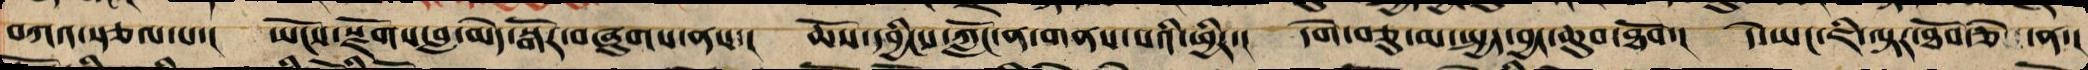བཀའ་སྩལ་པ་། ཡོངས་སྫོགས་བླ་མེད་སྒོར་ཞུགས་ནས་། ཆོས་དབྱིངས་ཀློང་ན་གནས་པའི་ཕྱིར་། དགེ་བཅུ་མ་སྤྱད་བྱང་ཆུབ་ཐོབ་། དེ་ཡང་ཇི་ལྟར་ཐོབ་ཅེ་ན་།
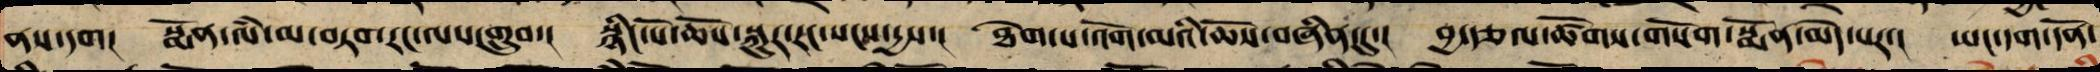ནས་དག། སྨོན་ལཾ་མ་བཏབ་རང་ལས་གྲུབ་། སྙིང་པོ་ཆོས་སྐུར་རང་སངས་དྱས་། ཐེག་པ་འོག་མའི་ཆོས་བཞིན་དུ་། བྱ་རྩལ་ཚོགས་གསོག་སྨོན་མེད་པར་། ཡང་དག་དོན་
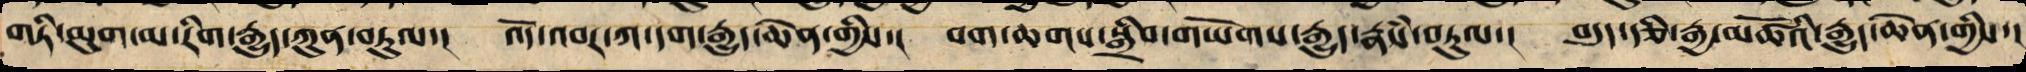གཏི་མུག་མ་རིག་རྒྱུད་ཀུན་བཏུལ་། འོད་འབར་ཀ་དག་རྒྱུད་ཆེན་གྱིས་། བག་ཆགས་སྒྲིབ་གཡོགས་རྒྱུད་རྣཾས་བཏུལ་། བདུད་རྩི་རྒྱ་མཚོའི་རྒྱུད་ཆེན་གྱིས་།
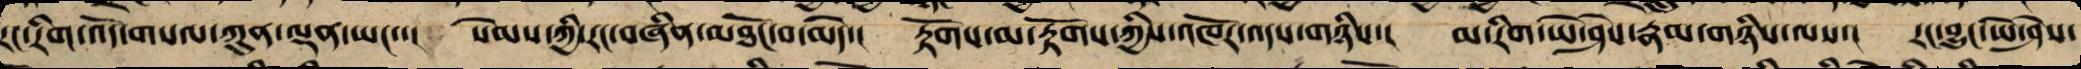རང་རིག་འོད་གསལ་ཀུན་ལྡན་ཡང་་། སེམས་ཀྱི་རང་བཞིན་མཐོང་བ་མེད་། རྟོགས་མ་རྟོགས་ཀྱིས་འཁོར་འདས་གཉིས་། མ་རིག་ཡེ་ཤེས་རྣམ་གཉིས་ལས་། རང་བྱུང་ཡེ་ཤེས་
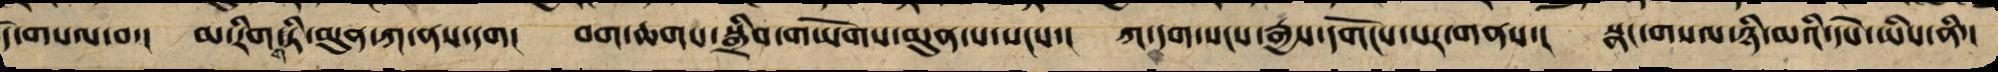འོད་གསལ་བ་། མ་རིག་གཏི་མུག་ཀ་ནས་དག། བག་ཆགས་སྒྲིབ་གཡོགས་མུན་པ་སངས་། ཀ་དག་སངས་རྒྱས་དགོངས་པར་གནས་། སྣང་གསལ་ཉི་མའི་དཔེ་ཡིས་ནི་།
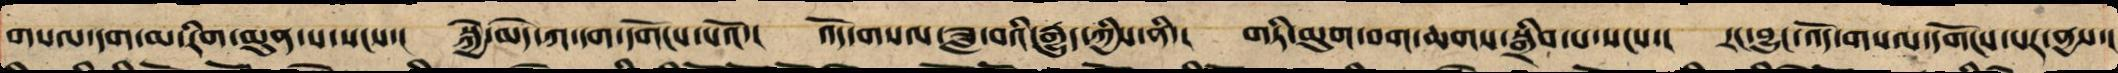གསལ་དག་མ་རིག་མུན་པ་སངས་། སྐྱེ་མེད་ཀ་དག་དགོངས་པའོ་། འོད་གསལ་ཟླ་བའི་རྒྱུད་ཀྱིས་ནི་། གཏི་མུག་བག་ཆགས་སྒྲིབ་པ་སངས་། རང་བྱུང་འོད་གསལ་དགོངས་པར་ནྱས་།
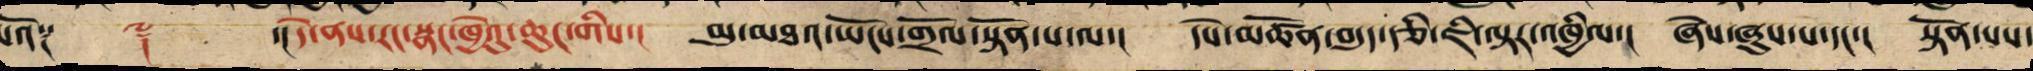པའོ།༑ ༈ ་།།དེ་ནས་རང་སྣང་ཁྱེའུ་ཆུང་གིས་། མུ་མཐའ་ཡོངས་གྲོལ་སྟོན་པ་ལ་། དཔེ་མཚོན་བདུད་རྩི་ཇི་ལྟར་འཁྱིལ་། ཞེས་ཞུས་པ་དང་། སྟོན་པས་
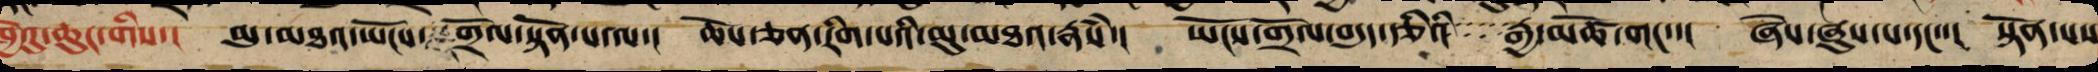ཁྱེའུ་ཆུང་གིས་། མུ་མཐའ་ཡོངས་གྲོལ་སྟོན་པ་ལ་། ཆོས་ཅན་རིག་པའི་མུ་མཐའ་རྣཾས་། ཡོངས་གྲོལ་བདུད་རྩིའི་རྒྱ་མཚོ་གང་་། ཞེས་ཞུས་པ་དང་་། སྟོན་པས
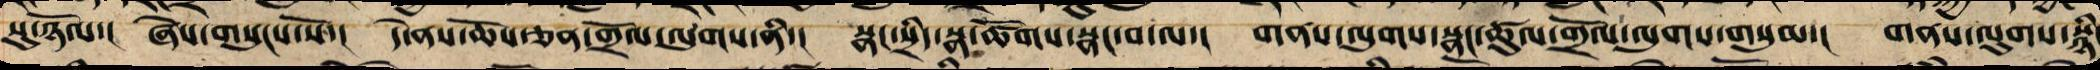སུ་ཉོལ་། ཞེས་གསུངས་སོ་། དེ་ནས་ཆོས་ཅན་གྲོལ་ལུགས་ནི་། སྣང་སྲིད་སྣ་ཚོགས་སྣང་བ་ལ་། གནས་ལུགས་སྣང་ཚུལ་གྲོལ་ལུགས་གསུམ་། གནས་ལུགས་སྙི
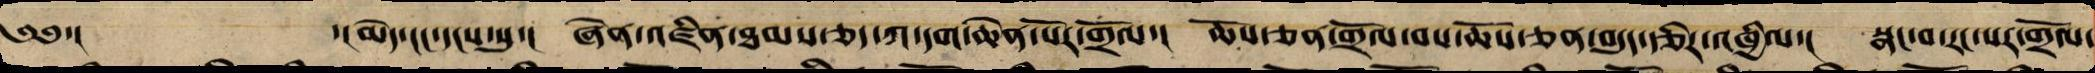༄༅་།  ་།མེད་ངང་དངས་སུ་། ཞེན་འཛིན་ཐམས་ཅད་ཀ་དག་ཆེན་པོར་གྲོལ་། ཆོས་ཅན་གྲོལ་བས་ཆོས་ཉིད་བདུད་རྩིར་འཁྱིལ་། སྣང་བ་རང་སར་གྲོལ་
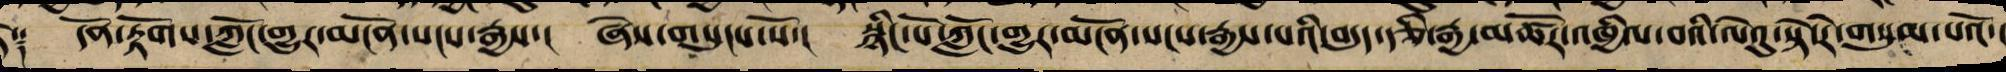ཏེ༑ དོན་རྟོགས་ཀློང་གྱུར་མངོན་སངས་རྒྱས་། ཞེས་གསུངས་སོ་། སྙིང་པོ་ཀློང་གྱུར་མངོན་སངས་རྒྱས་པའི་བདུད་རྩི་རྒྱ་མཚོར་འཁྱིལ་པའི་ལེའུ་སྟེ་རེ་གསུམ་པའོ་།
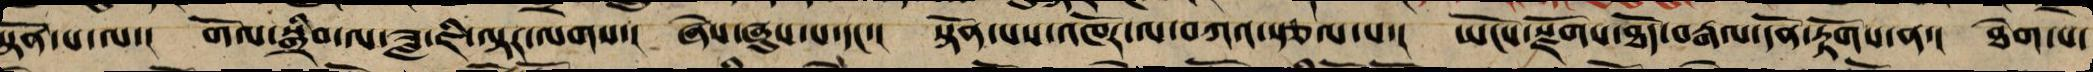སྟོན་པ་ལ་། གོལ་སྒྲིབ་ལ་ཟླ་ཇི་ལྟར་ལགས་། ཞེས་ཞུས་པ་དང་། སྟོན་པས་འཁོར་ལ་བཀའ་སྩལ་པ་། ཡོངས་སྫོགས་ཐོད་བརྒལ་དོན་རྟོགས་ནས་། ཐེག་པ་
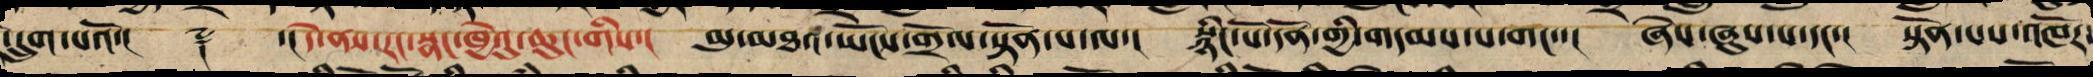་དྲུག་པའོ་།། ༈ ་།། དེ་ནས་རང་སྣང་ཁྱེའུ་ཆུང་གིས་། མུ་མཐའ་ཡོངས་གྲོལ་སྟོན་པ་ལ་། སྙིང་པོ་དོན་གྱི་གདམས་པ་གང་་། ཞེས་ཞུས་པ་དང་། སྟོན་པས་འཁོར་
